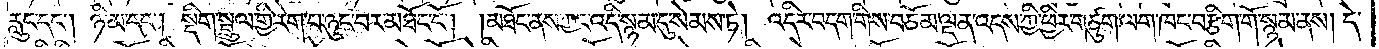རླུང་དང༌། ཉི་མ་དང༌། སྡིག་སྦྲུལ་གྱི་རེག་པ་ཉུང་བར་མཐོང་ངོ༌། །མཐོང་ནས་ཀྱང་འདི་སྙམ་དུ་སེམས་ཏེ། འདིར་བདག་གིས་བཅོམ་ལྡན་འདས་ཀྱི་ཕྱིར་གཙུག་ལག་ཁང་བརྩིག་གོ་སྙམ་ནས། དེ་
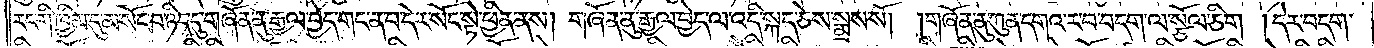རང་གི་ཁྱིམ་དུ་མ་སོང་བ་ཉིད་དུ་གཞོན་ནུ་རྒྱལ་བྱེད་གང་ན་བ་དེར་སོང་སྟེ་ཕྱིན་ནས། གཞོན་ནུ་རྒྱལ་བྱེད་ལ་འདི་སྐད་ཅེས་སྨྲས་སོ། །གཞོན་ནུ་ཀུན་དགའ་ར་བ་བདག་ལ་སྩོལ་ཅིག །དེར་བདག་
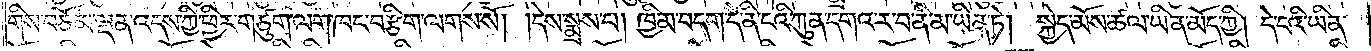གིས་བཅོམ་ལྡན་འདས་ཀྱི་ཕྱིར་གཙུག་ལག་ཁང་བརྩིག་ལགས་སོ། །དེས་སྨྲས་པ། ཁྱིམ་བདག་དེ་ནི་ངའི་ཀུན་དགའ་ར་བ་ནི་མ་ཡིན་ཏེ། སྐྱེད་མོས་ཚལ་ཡིན་མོད་ཀྱི། དེ་ངའི་ཡིན་
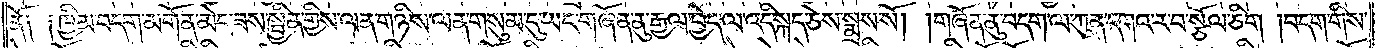ནོ༑ ༑ཁྱིམ་བདག་མགོན་མེད་ཟས་སྦྱིན་གྱིས་ལན་གཉིས་ལན་གསུམ་དུ་ཡང་གཞོན་ནུ་རྒྱལ་བྱེད་ལ་འདི་སྐད་ཅེས་སྨྲས་སོ། །གཞོན་ནུ་བདག་ལ་ཀུན་དགའ་ར་བ་སྩོལ་ཅིག །བདག་གིས་
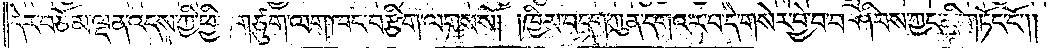དེར་བཅོམ་ལྡན་འདས་ཀྱི་ཕྱིར་གཙུག་ལག་ཁང་བརྩིག་ལགས་སོ། །ཁྱིམ་བདག་ཀུན་དགའ་ར་བ་དེ་གསེར་བྱེ་བ་བཤིབས་ཀྱང་མི་གཏོང་ངོ༌༎
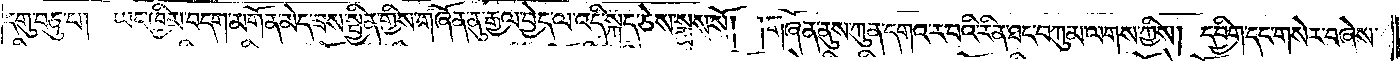དགུ་བཅུ་པ། ཡང་ཁྱིམ་བདག་མགོན་མེད་ཟས་བྱིན་གྱིས་གཞོན་ནུ་རྒྱལ་བྱེད་ལ་འདི་སྐད་ཅེས་སྨྲས་སོ། །གཞོན་ནུས་ཀུན་དགའ་ར་བའི་རིན་ཐང་བཀུམ་ལགས་ཀྱིས། དབྱིག་དང་གསེར་བཞེས་
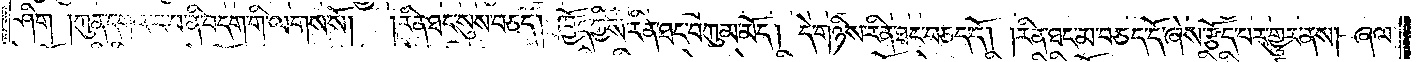ཤིག །ཀུན་དགའ་ར་བ་ནི་བདག་གི་ལགས་སོ།  །རིན་ཐང་སུས་བཅད། ཁྱོད་ཀྱིས་རིན་ཐང་བཀུམ་མོད། དེ་གཉིས་རིན་ཐང་བཅད་དོ། །རིན་ཐང་མ་བཅད་དོ་ཞེས་རྩོད་པར་གྱུར་ནས། ཞལ་
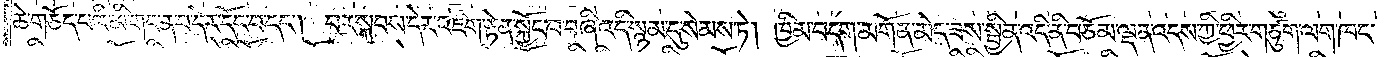ཆེ་གཅོད་པའི་མི་གང་ན་བ་དེར་དོང་བ་དང༌། བར་སྐབས་དེར་འཇིག་རྟེན་སྐྱོང་བ་བཞི་འདི་སྙམ་དུ་སེམས་ཏེ། ཁྱིམ་བདག་མགོན་མེད་ཟས་སྦྱིན་འདི་ནི་བཅོམ་ལྡན་འདས་ཀྱི་ཕྱིར་གཙུག་ལག་ཁང་
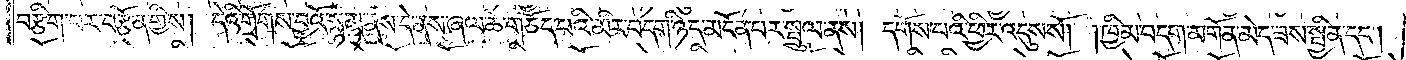བརྩིག་པར་བརྩོན་གྱིས། དེའི་གྲོགས་བྱའོ་སྙམ་ནས་དེ་ནས་ཞལ་ཆེ་གཅོད་པའི་མིར་བདག་ཉིད་མངོན་པར་སྤྲུལ་ནས། དགོས་པའི་ཕྱིར་འདུས་སོ། །ཁྱིམ་བདག་མགོན་མེད་ཟས་སྦྱིན་དང༌།
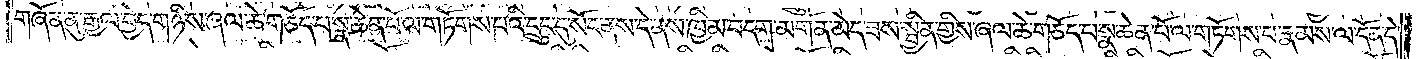གཞོན་ནུ་རྒྱལ་བྱེད་གཉིས་ཞལ་ཆེ་གཅོད་པ་སྣ་ཆེན་པོ་ལ་གཏོགས་པའི་དྲུང་དུ་སོང་ནས་དེ་ནས་ཁྱིམ་བདག་མགོན་མེད་ཟས་སྦྱིན་གྱིས་ཞལ་ཆེ་གཅོད་པ་སྣ་ཆེན་པོ་ལ་གཏོགས་པ་རྣམས་ལ་དོན་དེ་
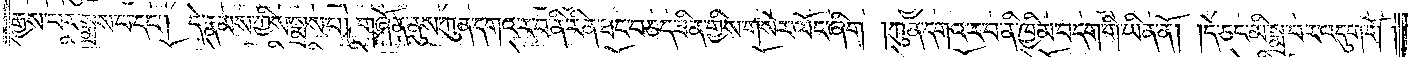རྒྱས་པར་སྨྲས་པ་དང༌། དེ་རྣམས་ཀྱིས་སྨྲས་པ། གཞོན་ནུས་ཀུན་དགའ་ར་བ་ནི་རིན་ཐང་བཅད་ཟིན་གྱིས་གསེར་ལོང་ཞིག །ཀུན་དགའ་བ་ར་བ་ནི་ཁྱིམ་བདག་གི་ཡིན་ནོ། །དེ་ཅང་མི་སྨྲ་བར་འདུག་གོ །
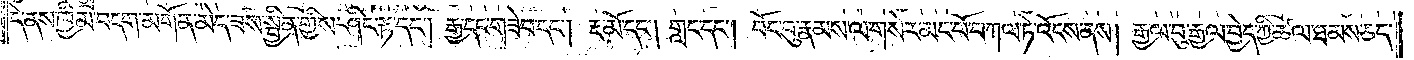དེ་ནས་ཁྱིམ་བདག་མགོན་མེད་ཟས་སྦྱིན་གྱིས་ཤིང་རྟ་དང༌། རྒྱ་དང༌གཟེབ་དང༌། རྔ་མོ་དང༌། གླང་དང༌། བོང་བུ་རྣམས་ལ་གསེར་མང་པོ་བཀལ་ཏེ་འོངས་ནས། རྒྱལ་བུ་རྒྱལ་བྱེད་ཀྱི་ཚལ་ཐམས་ཅད་
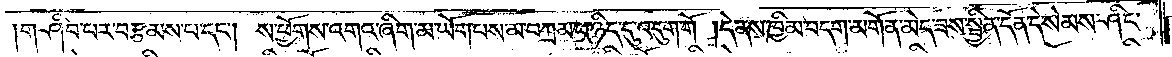གཤིབ་པར་བརྩམས་པ་དང༌། ས་ཕྱོགས་འགའ་ཞིག་མ་ཡོག་པས་མ་བཀྲམ་པ་ཉིད་དུ་འདུག་གོ །དེ་ནས་ཁྱིམ་བདག་མགོན་མེད་ཟས་སྦྱིན་དོན་དེ་སེམས་ཤིང་
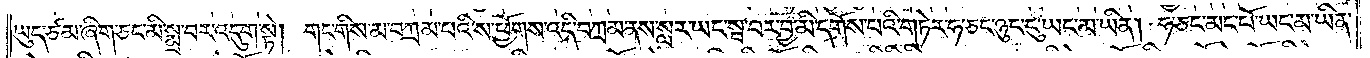ཡུད་ཙམ་ཞིག་ཅང་མི་སྨྲ་བར་འདུག་སྟེ། གང་གིས་མ་བཀྲམ་པའི་ས་ཕྱོགས་འདི་བཀྲམ་ནས་སླར་ཡང་སྦ་བར་བྱ་མི་དགོས་པའི་གཏེར་ཧ་ཅང་ཉུང་ངུ་ཡང་མ་ཡིན། ཧ་ཅང་མང་པོ་ཡང་མ་ཡིན་
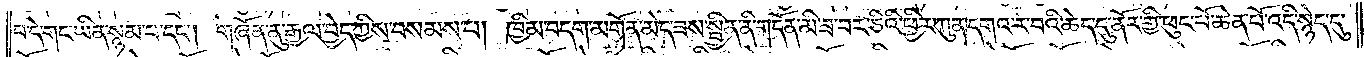པ་དེ་གང་ཡིན་སྙམ་པ་དང༌། གཞོན་ནུ་རྒྱལ་བྱེད་ཀྱིས་བསམས་པ། ཁྱིམ་བདག་མགོན་མེད་ཟས་སྦྱིན་ནི་གདོན་མི་ཟ་བར་ཅིའི་ཕྱིར་ཀུན་དགའ་ར་བའི་ཆེད་དུ་ནོར་གྱི་ཕུང་པོ་ཆེན་པོ་འདི་སྙེད་དུ་
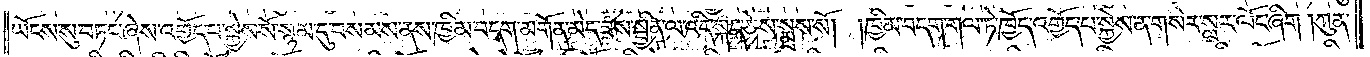ཡོངས་སུ་བཏང་ཞེས་འགྱོད་པ་སྐྱེས་སོ་སྙམ་དུ་བསམས་ནས་ཁྱིམ་བདག་མགོན་མེད་ཟས་སྦྱིན་ལ་འདི་སྐད་ཅེས་སྨྲས་སོ། །ཁྱིམ་བདག་གལ་ཏེ་ཁྱོད་འགྱོད་པ་སྐྱེས་ན་གསེར་སླར་ལོང་ཞིག །ཀུན་
